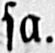sa.
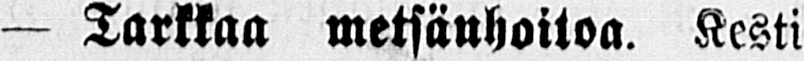— Tarkkaa metsänhoitoa. Kesti
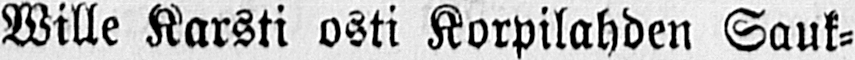Wille Karsti osti Korpilahden Sauk-
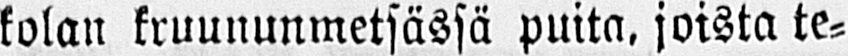kolan kruununmetsässä puita, joista te-
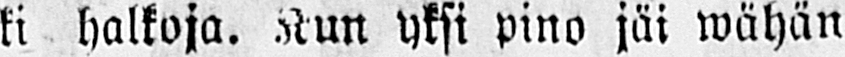ki halkoja. Kun Yksi pino jäi wähän
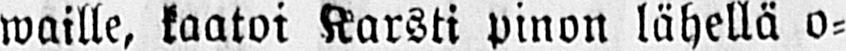waille, kaatoi Karsti pinon lähellä o-
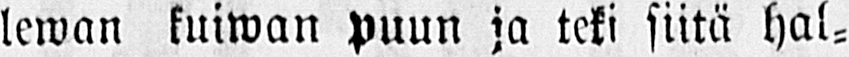lewan tuiwan puun ja teki siitä hal-
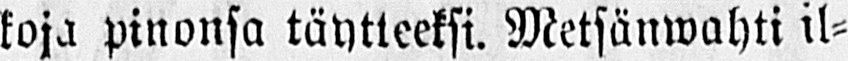koja pinonsa täytteeksi. Metsänwahti il-
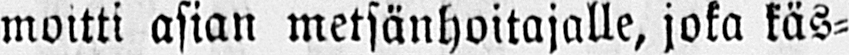moitti asian metsänhoitajalle, joka käs-
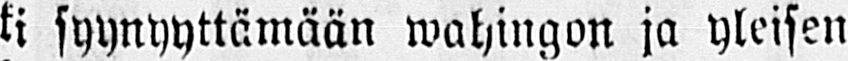ki syynyyttämään wahingon ja yleisen
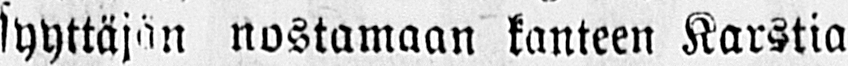syyttäjän nostamaan kanteen Karstia
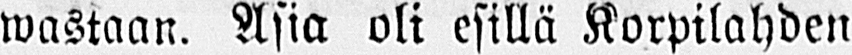wastaan. Asia oli esillä Korpilahden
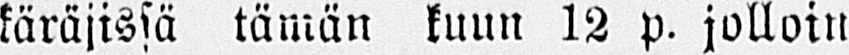käräjissä tämän kuun 12 p. jolloin
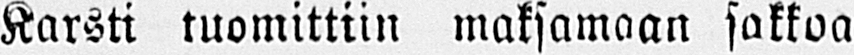Karsti tuomittiin maksamaan sakkoa
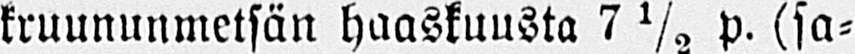kruununmetsän haaskuusta 7½ p. (sa-
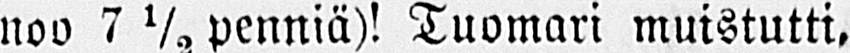noo 7½ penniä)! Tuomari muistutti,
